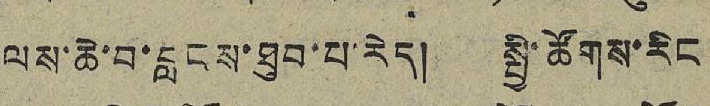ལས་ཆེ་བ་བླངས་ཐུབ་པ་རེད། སྤྱི་ཚོགས་རིང
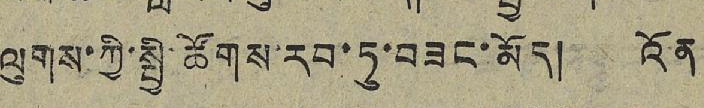ལུགས་ཀྱི་སྤྱི་ཚོགས་རབ་ཏུ་བཟང་མོད། འོན
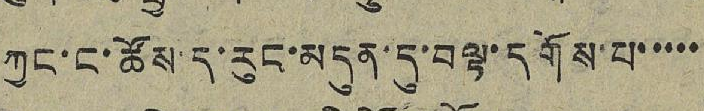ཀྱང་ང་ཚོས་ད་རུང་མདུན་དུ་བལྟ་དགོས་པ་་་་་
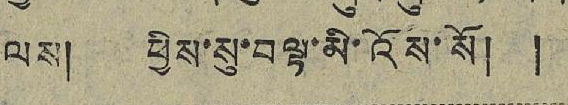ལས། ཕྱིས་སུ་བལྟ་མི་འོས་སོ། །
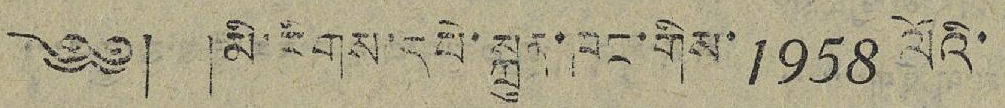༄༅། །མི་རིགས་དཔེ་སྐྲུན་ཁང་གིས་1958 ལོའི་
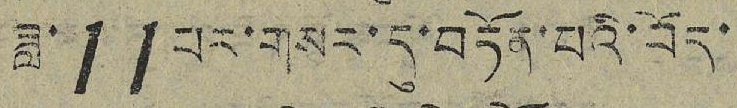ཟླ་11པར་གསར་དུ་བཏོན་པའི་བོད་
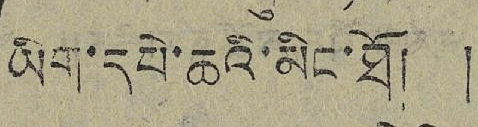ཡིག་དཔེ་ཆའི་མིང་ཐོ། །
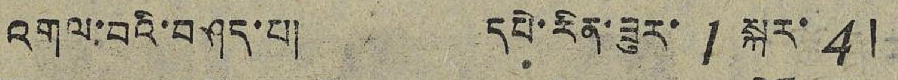འགལ་བའི་བཤད་པ། དཔེ་རིན་ཟུར་ 1 སྐར་ 4།
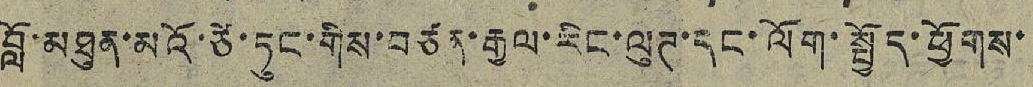བློ་མཐུན་མའོ་ཙེ་ཏུང་གིས་བཙན་རྒྱལ་རིང་ལུཊ་དང་ལོག་སྤྱོད་ཕྱོགས་
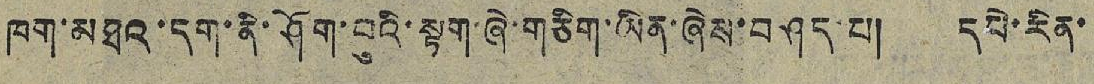ཁག་མཐའ་དག་ནི་ཤོག་བུའི་སྟག་ཞེ་གཅིག་ཡིན་ཞེས་བཤད་པ། དཔེ་རིན་
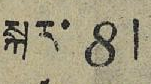སྐར་ 8།
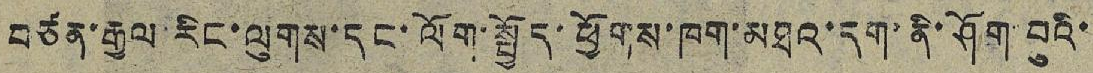བཙན་རྒྱལ་རིང་ལུགས་དང་ལོག་སྤྱོད་ཕྱོགས་ཁག་མཐའ་དག་ནི་ཤོག་བུའི་
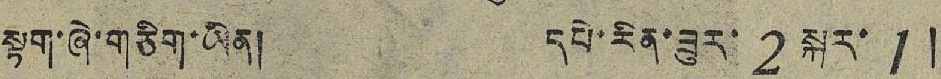སྟག་ཞེ་གཅིག་ཡིན། དཔེ་རིན་ཟུར་ 2 སྐར་ 1།
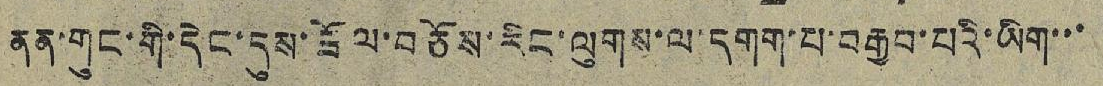ནན་གུང་གི་དེང་དུས་ཟོལ་བཅོས་རིང་ལུགས་ལ་དགག་པ་བརྒྱབ་པའི་ཡིག་་་
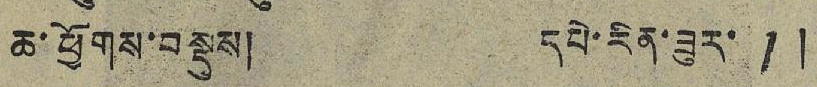ཆ་ཕྱོགས་བསྡུས། དཔེ་རིན་ཟུར་ 1།
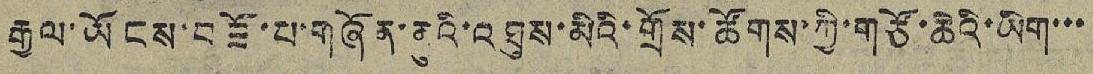རྒྱལ་ཡོངས་བཟོ་པ་གཞོན་ནུའི་འཐུས་མིའི་གྲོས་ཚོགས་ཀྱི་གཙོ་ཆེའི་ཡིག་་་
